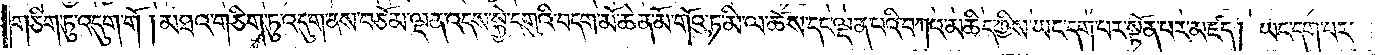གཅིག་ཏུ་འདུག་གོ །མཐའ་གཅིག་ཏུ་འདུག་ནས་བཅོམ་ལྡན་འདས་སྐྱེ་དགུའི་བདག་མོ་ཆེན་མོ་གོའུ་ག་མི་ལ་ཆོས་དང་ལྡན་པའི་བཀའ་མཆིད་ཀྱིས་ཡང་དག་པར་སྟོན་པར་མཛད། ཡང་དག་པར་
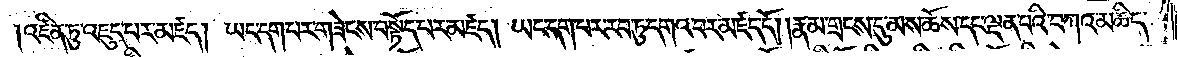འཛིན་ཏུ་འཇུད་པར་མཛད། ཡང་དག་པར་གཟེངས་བསྟོད་པར་མཛད། ཡང་དག་པར་རབ་ཏུ་དགའ་བར་མཛད་དོ། །རྣམ་གྲངས་དུ་མས་ཆོས་དང་ལྡན་པའི་བཀའ་མཆིད་
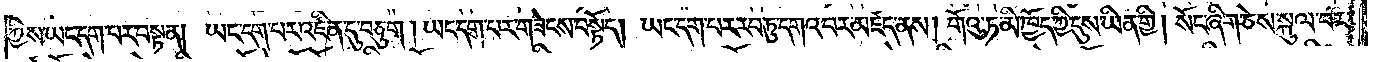ཀྱིས་ཡང་དག་པར་བསྟན། ཡང་དག་པར་འཛིན་དུ་བཅུག །ཡང་དག་པར་གཟེངས་བསྟོད། ཡང་དག་པར་རབ་ཏུ་དགའ་བར་མཛད་ནས། གོའུ་ཏ་མི་ཁྱོད་ཀྱི་དུས་ཡིན་གྱི། སོང་ཞིག་ཅེས་སྐུལ་བར་
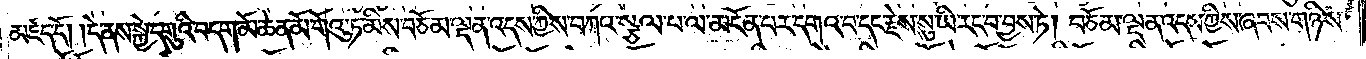མཛད་དོ། །དེ་ནས་སྐྱེ་དགུའི་བདག་མོ་ཆེན་མོ་གོའུ་ཏ་མིས་བཅོམ་ལྡན་འདས་ཀྱིས་བཀའ་སྩལ་པ་ལ་མངོན་པར་དགའ་བ་དང་རྗེས་སུ་ཡི་རང་བ་བྱས་ཏེ། བཅོམ་ལྡན་འདས་ཀྱིས་ཞབས་གཉིས་
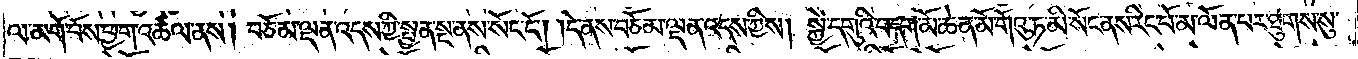ལ་མགོ་བོས་ཕྱག་འཚལ་ནས། བཅོམ་ལྡན་འདས་ཀྱི་སྤྱན་སྔ་ནས་སོང་ངོ༌། །དེ་ནས་བཅོམ་ལྡན་འདས་ཀྱིས། སྐྱེ་དགུའི་བདག་མོ་ཆེན་མོ་གོའུ་ཏ་མི་སོང་ནས་རིང་པོ་མ་ལོན་པར་ཐུགས་སུ་
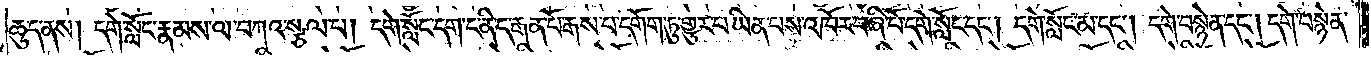ཆུད་ནས། དགེ་སློང་རྣམས་ལ་བཀའ་སྩལ་པ། དགེ་སློང་དག་ང་ནི་ད་རྒན་པོ་རྒས་པ་དགོག་ཏུ་གྱུར་པ་ཡིན་པས་འཁོར་བཞི་པོ་དགེ་སློང་དང༌། དགེ་སློང་མ་དང༌། དགེ་བསྙེན་དང༌། དགེ་བསྙེན་
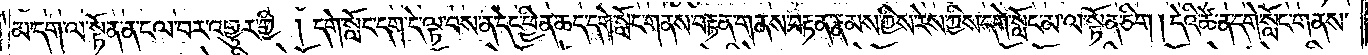མ་དག་ལ་སྟོན་ན་ངལ་བར་འགྱུར་གྱི། དགེ་སློང་དག་དེ་ལྟ་བས་ན་དེང་ཕྱིན་ཆད་དགེ་སློང་གནས་བརྟན་གནས་བརྟན་རྣམས་ཀྱིས་རེས་ཀྱིས་དགེ་སློང་མ་ལ་སྟོན་ཅིག །དེའི་ཚེ་ན་དགེ་སློང་གནས་
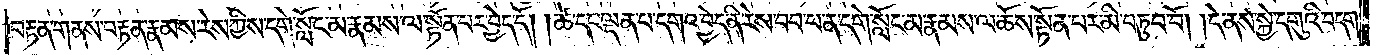བརྟན་གནས་བརྟན་རྣམས་རེས་ཀྱིས་དགེ་སློང་མ་རྣམས་ལ་སྟོན་པར་བྱེད་དོ། །ཚེ་དང་ལྡན་པ་དགའ་བྱེད་ནི་རེས་བབ་པ་ན་དགེ་སློང་མ་རྣམས་ལ་ཆོས་སྟོན་པར་མི་བཏུབ་བོ། །དེ་ནས་སྐྱེ་དགུའི་བདག་
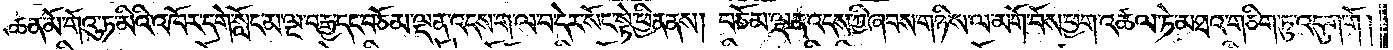ཆེན་མོ་གོའུ་ཏ་མིའི་འཁོར་དགེ་སློང་མ་ལྔ་བརྒྱ་དང་བཅོམ་ལྡན་འདས་ག་ལ་བ་དེར་སོང་སྟེ་ཕྱིན་ནས། བཅོམ་ལྡན་འདས་ཀྱི་ཞབས་གཉིས་ལ་མགོ་བོས་ཕྱག་འཚལ་ཏེ་མཐའ་གཅིག་ཏུ་འདུག་གོ།
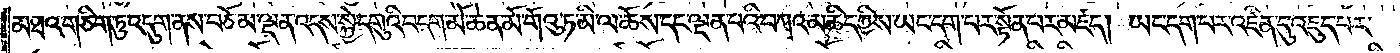མཐའ་གཅིག་ཏུ་འདུག་ནས་བཅོམ་ལྡན་འདས་སྐྱེ་དགུའི་བདག་མོ་ཆེན་མོ་གོའུ་ཏ་མི་ལ་ཆོས་དང་ལྡན་པའི་བཀའ་མཆིད་ཀྱིས་ཡང་དག་པར་སྟོན་པར་མཛད། ཡང་དག་པར་འཛིན་དུ་འཇུད་པར་
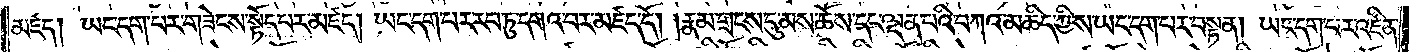མཛད། ཡང་དག་པར་གཟེངས་སྟོད་པར་མཛད། ཡང་དག་པར་རབ་ཏུ་དགའ་བར་མཛད་དོ། །རྣམ་གྲངས་དུ་མས་ཆོས་དང་ལྡན་པའི་བཀའ་མཆིད་ཀྱིས་ཡང་དག་པར་བསྟན། ཡང་དག་པར་འཛིན་
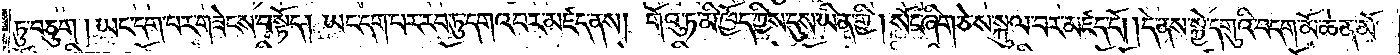ཏུ་བཅུག །ཡང་དག་པར་གཟེངས་བསྟོད། ཡང་དག་པར་རབ་ཏུ་དགའ་བར་མཛད་ནས། གོའུ་ཏ་མི་ཁྱོད་ཀྱིས་དུས་ཡིན་གྱི། སོང་ཞིག་ཅེས་སྐུལ་བར་མཛད་དོ། །དེ་ནས་སྐྱེ་དགུའི་བདག་མོ་ཆེན་མོ་
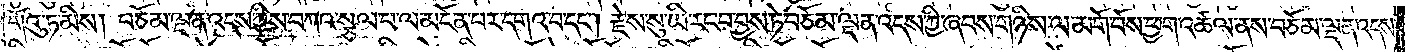གོའུ་ཏ་མིས། བཅོམ་ལྡན་འདས་ཀྱིས་བཀའ་སྩལ་པ་ལ་མངོན་པར་དགའ་བ་དང༌། རྗེས་སུ་ཡི་རང་བ་བྱས་ཏེ་བཅོམ་ལྡན་འདས་ཀྱི་ཞབས་གཉིས་ལ་མགོ་བོས་ཕྱག་འཚལ་ནས་བཅོམ་ལྡན་འདས་
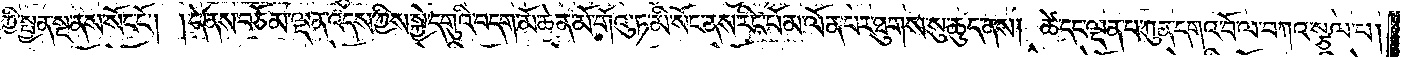ཀྱི་སྤྱན་སྔ་ནས་སོང་ངོ༌། །དེ་ནས་བཅོམ་ལྡན་འདས་ཀྱིས་སྐྱེ་དགུའི་བདག་མོ་ཆེན་མོ་གོའུ་ཏ་མི་སོང་ནས་རིང་པོ་མ་ལོན་པར་ཐུགས་སུ་ཆུད་ནས། ཚེ་དང་ལྡན་པ་ཀུན་དགའ་བོ་ལ་བཀའ་སྩལ་པ།
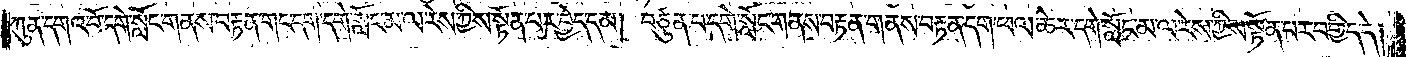ཀུན་དགའ་བོ་དགེ་སློང་གནས་བརྟན་གང་དག་དགེ་སློང་མ་ལ་རེས་ཀྱིས་སྟོན་པར་བྱེད་དམ། བཙུན་པ་དགེ་སློང་གནས་བརྟན་གནས་བརྟན་དག་ཕལ་ཆེར་དགེ་སློང་མ་ལ་རེས་ཀྱིས་སྟོན་པར་བགྱིད་དེ།
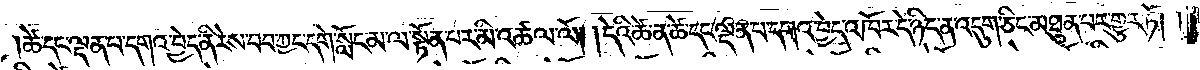ཚེ་དང་ལྡན་པ་དགའ་བྱེད་ནི་རེས་བབ་ཀྱང་དགེ་སློང་མ་ལ་སྟོན་པར་མི་འཚལ་ལོ། །དེའི་ཚེ་ན་ཚེ་དང་ལྡན་པ་དགའ་བྱེད་འཁོར་དེ་ཉིད་ན་འདུག་ཅིང་མཐུན་པར་གྱུར་ཏོ། །
